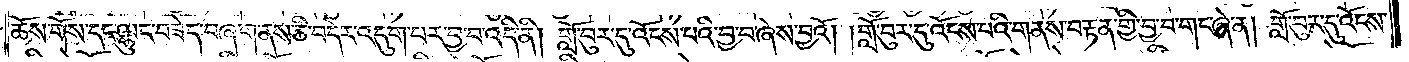ཆོས་གོས་དང་ལྷུང་བཟེད་བཞག་ནས་ཅི་བ་དེར་འདུག་པར་བྱ་བ་འདི་ནི། གློ་བུར་དུ་འོངས་པའི་བྱ་བ་ཞེས་བྱའོ། །གློ་བུར་དུ་འོངས་པའི་གནས་བརྟན་གྱི་བྱ་བ་གང་ཞེ་ན། གློ་བུར་དུ་འོངས་
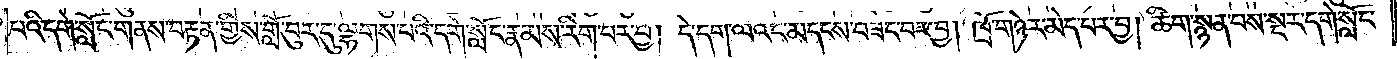པའི་དགེ་སློང་གནས་བརྟན་གྱིས་གློ་བུར་དུ་ལྷགས་པའི་དགེ་སློང་རྣམས་རིགས་པར་བྱ། དེ་དག་ལའང་མདངས་བཟང་བར་བྱ། ཁྲོ་གཉེར་མེད་པར་བྱ། ཚིག་སྙན་པས་སྔར་དགེ་སློང་
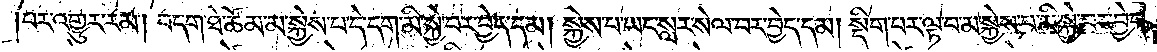པར་འགྱུར་རམ། བདག་ཐེ་ཚོམ་མ་སྐྱེས་པ་དེ་དག་མི་སྐྱེ་བར་བྱེད་དམ། སྐྱེས་པ་ཡང་སླར་སེལ་བར་བྱེད་དམ། སྡིག་པར་ལྟ་བ་མ་སྐྱེས་པ་མི་སྐྱེ་བར་བྱེད་
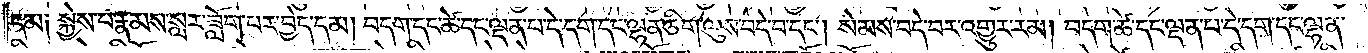དམ། སྐྱེས་པ་རྣམས་སླར་ཟློག་པར་བྱེད་དམ། བདག་དང་ཚེ་དང་ལྡན་པ་དེ་དག་དང་ལྷན་ཅིག་ལུས་བདེ་བ་དང༌། སེམས་བདེ་བར་འགྱུར་རམ། བདག་ཚེ་དང་ལྡན་པ་དེ་དག་དང་ལྷན་
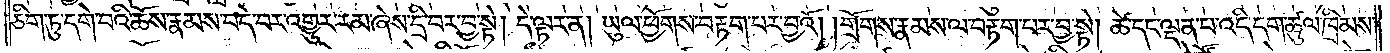ཅིག་ཏུ་དགེ་བའི་ཆོས་རྣམས་བདེ་བར་འགྱུར་རམ་ཞེས་དྲི་བར་བྱ་སྟེ། དེ་ལྟར་ན། ཡུལ་ཕྱོགས་བརྟག་པར་བྱའོ། །གྲོགས་རྣམས་ལ་བརྟག་པར་བྱ་སྟེ། ཚེ་དང་ལྡན་པ་འདི་དག་ཚུལ་ཁྲིམས་
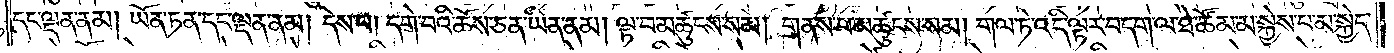དང་ལྡན་ནམ། ཡོན་ཏན་དང་ལྡན་ནམ། དེས་པ། དགེ་བའི་ཆོས་ཅན་ཡིན་ནམ། ལྟ་བ་མཚུངས་སམ། གནས་པ་མཚུངས་སམ། གལ་ཏེ་འདི་ལྟར་བདག་ལ་ཐེ་ཚོམ་མ་སྐྱེས་པ་མ་སྐྱེད་
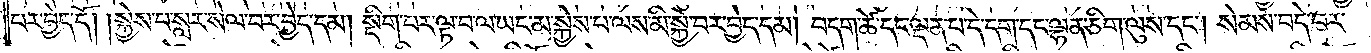པར་བྱེད་དོ། །སྐྱེས་པ་སླར་སེལ་བར་བྱེད་དམ། སྡིག་པར་ལྟ་བ་ལ་ཡང་མ་སྐྱེས་པ་ལས་མི་སྐྱེ་བར་བྱེད་དམ། བདག་ཚེ་དང་ལྡན་པ་དེ་དག་དང་ལྷན་ཅིག་ལུས་དང༌། སེམས་བདེ་བར་
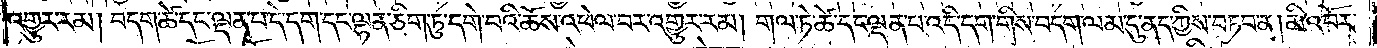འགྱུར་རམ། བདག་ཚེ་དང་ལྡན་པ་དེ་དག་དང་ལྷན་ཅིག་ཏུ་དགེ་བའི་ཆོས་འཕེལ་བར་འགྱུར་རམ། གལ་ཏེ་ཚེ་དང་ལྡན་པ་འདི་དག་གིས་བདག་ལམ་དུ་ནད་ཀྱིས་བཏབ་ན། མི་འབོར་
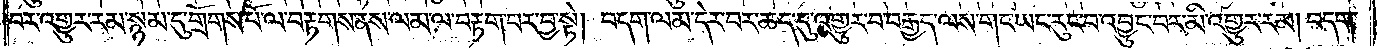བར་འགྱུར་རམ་སྙམ་དུ་གྲོགས་པོ་ལ་བརྟགས་ནས་ལམ་ལ་བརྟག་པར་བྱ་སྟེ། བདག་ལམ་དེར་བར་ཆད་དུ་འགྱུར་བ་བརྒྱད་ལས་གང་ཡང་རུང་བ་འབྱུང་བར་མི་འགྱུར་རམ། བདག་
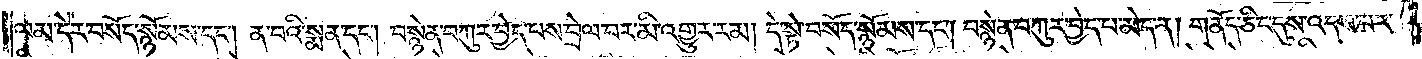ལམ་དེར་བསོད་སྙོམས་དང༌། ན་བའི་སྨན་དང༌། བསྙེན་བཀུར་བྱེད་པས་བྲེལ་བར་མི་འགྱུར་རམ། དེ་སྟེ་བསོད་སྙོམས་དང༌། བསྙེན་བཀུར་བྱེད་པ་མེད་ན། གནོད་ཅིང་དུས་འདས་པར་
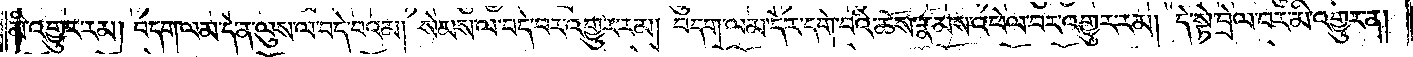མི་འགྱུར་རམ། བདག་ལམ་དེ་ན་ལུས་ལ་བདེ་བའམ། སེམས་ལ་བདེ་བར་འགྱུར་རམ། བདག་ལམ་དེར་དགེ་བའི་ཆོས་རྣམས་འཕེལ་བར་འགྱུར་རམ། དེ་སྟེ་བྲེལ་བར་མི་འགྱུར་ན།
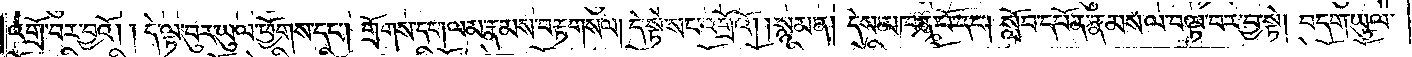འགྲོ་བར་བྱའོ། །དེ་ལྟ་བུར་ཡུལ་ཕྱོགས་དང༌། གྲོགས་དང༌། ལམ་རྣམས་བརྟགས་ལ། དེ་སྟེ་སང་འགྲོའོ། །སྙམ་ན། དེས་མཁན་པོ་དང༌། སློབ་དཔོན་རྣམས་ལ་བལྟ་བར་བྱ་སྟེ། བདག་ཡུལ་
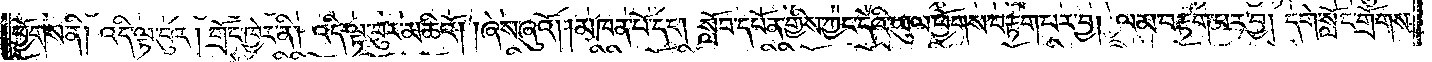ཕྱོགས་ནི། འདི་ལྟ་བུར། གྲོང་ཁྱེར་ནི། འདི་ལྟ་བུར་མཆིའོ། །ཞེས་ཞུའོ། །མཁན་པོ་དང༌། སློབ་དཔོན་གྱིས་ཀྱང་དེའི་ཡུལ་ཕྱོགས་བརྟག་པར་བྱ། ལམ་བརྟག་པར་བྱ། དགེ་སློང་གྲོགས་
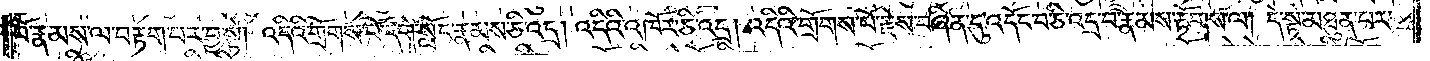པོ་རྣམས་ལ་བརྟག་པར་བྱ་སྟེ། འདིའི་གྲོགས་པོ་དགེ་སློང་རྣམས་ཅི་འདྲ། འདིའི་འཁོར་ཅི་འདྲ། འདིའི་གྲོགས་པོ་རྗེས་བཞིན་དུ་འདོང་བ་ཅི་འདྲ་བ་རྣམས་རྟོགས་ལ། དེ་སྟེ་མཐུན་པར་
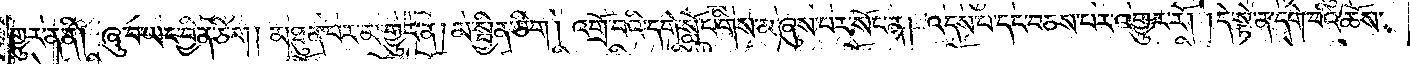གྱུར་ན་ནི། ཞུ་བ་ཡང་བྱིན་ཅིག །མཐུན་པར་མ་གྱུར་ན། མ་སྦྱིན་ཅིག །འགྲོ་བའི་དགེ་སློང་གིས་མ་ཞུས་པར་སོང་ན། འདས་པ་དང་བཅས་པར་འགྱུར་རོ། །དེ་སྟེ་ན་དགེ་བའི་ཆོས་
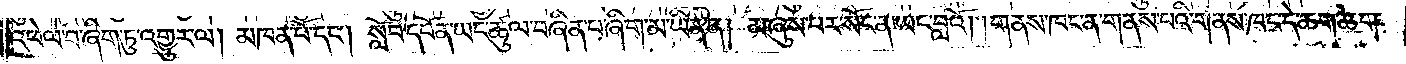འཕེལ་བ་ཞིག་ཏུ་འགྱུར་ལ། མཁན་པོ་དང༌། སློབ་དཔོན་ཡང་ཚུལ་བཞིན་པ་ཞིག་མ་ཡིན་ན། མ་ཞུས་པར་སོང་ན་ཡང་བླའོ། །གནས་ཁང་ན་གནས་པའི་གནས་ཁང་དེ་ཆག་ཆག་
